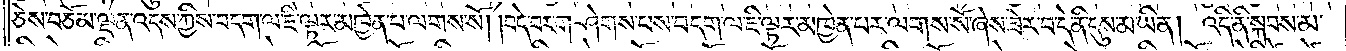ཅེས་བཅོམ་ལྡན་འདས་ཀྱིས་བདག་ལ་ཇི་ལྟར་མཁྱེན་པ་ལགས་སོ། །བདེ་བར་གཤེགས་པས་བདག་ལ་ཇི་ལྟར་མཁྱེན་པར་ལགས་སོ་ཞེས་ཟེར་བ་དེ་ནི་དུས་མ་ཡིན། འདི་ནི་སྐབས་མ་
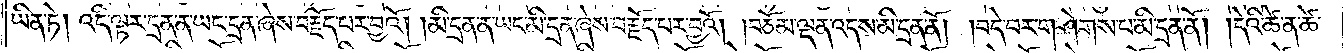ཡིན་ཏེ། འདི་ལྟར་དྲན་ན་ཡང་དྲན་ཞེས་བརྗོད་པར་བྱའོ། །མི་དྲན་ན་ཡང་མི་དྲན་ཞེས་བརྗོད་པར་བྱའོ། །བཅོམ་ལྡན་འདས་མི་དྲན་ནོ། །བདེ་བར་གཤེགས་པ་མི་དྲན་ནོ། །དེའི་ཚེ་ན་ཚེ་
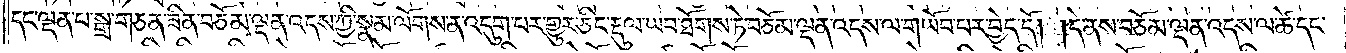དང་ལྡན་པ་སྒྲ་གཅན་ཟིན་བཅོམ་ལྡན་འདས་ཀྱི་སྣམ་ལོགས་ན་འདུག་པར་གྱུར་ཅིང་རྡུལ་ཡབ་ཐོགས་ཏེ་བཅོམ་ལྡན་འདས་ལ་གཡོབ་པར་བྱེད་དོ། །དེ་ནས་བཅོམ་ལྡན་འདས་ལ་ཚེ་དང་
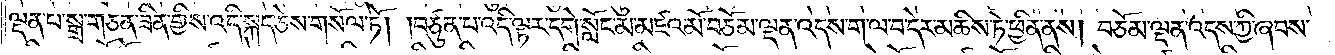ལྡན་པ་སྒྲ་གཅན་ཟིན་གྱིས་འདི་སྐད་ཅེས་གསོལ་ཏོ། །བཙུན་པ་འདི་ལྟར་དགེ་སློང་མ་མཛའ་མོ་བཅོམ་ལྡན་འདས་ག་ལ་བ་དེར་མཆིས་ཏེ་ཕྱིན་ནས། བཅོམ་ལྡན་འདས་ཀྱི་ཞབས་
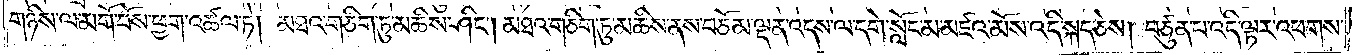གཉིས་ལ་མགོ་བོས་ཕྱག་འཚལ་ཏེ། མཐའ་གཅིག་ཏུ་མཆིས་ཤིང༌། མཐའ་གཅིག་ཏུ་མཆིས་ནས་བཅོམ་ལྡན་འདས་ལ་དགེ་སློང་མ་མཛའ་མོས་འདི་སྐད་ཅེས། བཙུན་པ་འདི་ལྟར་འཕགས་
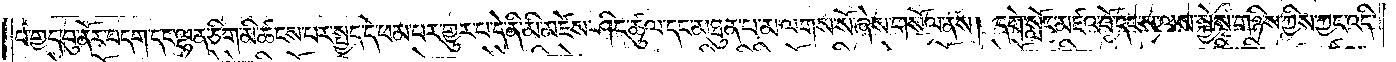པ་གྱད་བུ་ནོར་བདག་དང་ལྷན་ཅིག་མི་ཚངས་པར་སྤྱད་དེ་ཕམ་པར་གྱུར་པ་དེ་ནི་མི་མཛེས་ཤིང་ཚུལ་དང་མཐུན་པ་མ་ལགས་སོ་ཞེས་གསོལ་ནས། དགེ་སློང་མཛའ་བོ་དང་ས་ལས་སྐྱེས་གཉིས་ཀྱིས་ཀྱང་འདི་
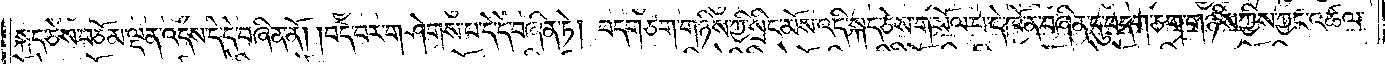སྐད་ཅེས་བཅོམ་ལྡན་འདས་དེ་དེ་བཞིན་ནོ། །བདེ་བར་གཤེགས་པ་དེ་དེ་བཞིན་ཏེ། བདག་ཅག་གཉིས་ཀྱི་སྲིང་མོས་འདི་སྐད་ཅེས་གསོལ་པ་དེ་ཁོ་ན་བཞིན་དུ་བདག་ཅག་གཉིས་ཀྱིས་ཀྱང་འཚལ་
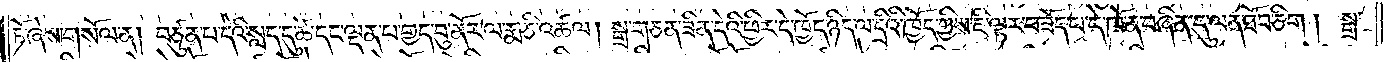ཏོ་ཞེས་གསོལ་ན། བཙུན་པ་དེའི་སླད་དུ་ཚེ་དང་ལྡན་པ་གྱད་བུ་ནོར་ལ་རྨ་ཅི་འཚལ། སྒྲ་གཅན་ཟིན་དེའི་ཕྱིར་དེ་ཁྱོད་ཉིད་ལ་དྲིའི་ཁྱོད་ཀྱིས་ཇི་ལྟར་བཟོད་པ་དེ་ཁོ་ན་བཞིན་དུ་ལན་ཐོབ་ཅིག། སྒྲ་
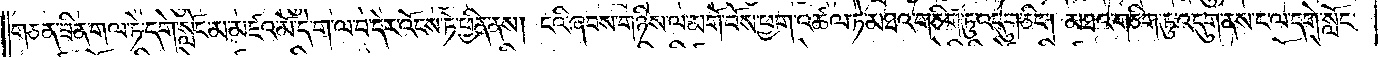གཅན་ཟིན་གལ་ཏེ་དགེ་སློང་མ་མཛའ་མོ་དེ་ག་ལ་བ་དེར་འོངས་ཏེ་ཕྱིན་ནས། ངའི་ཞབས་གཉིས་ལ་མགོ་བོས་ཕྱག་འཚལ་ཏེ་མཐའ་གཅིག་ཏུ་འདུག་ཅིང༌། མཐའ་གཅིག་ཏུ་འདུག་ནས་ང་ལ་དགེ་སློང་
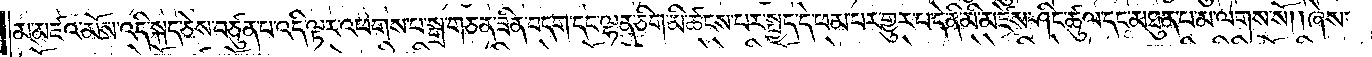མ་མཛའ་མོས་འདི་སྐད་ཅེས་བཙུན་པ་འདི་ལྟར་འཕགས་པ་སྒྲ་གཅན་ཟིན་བདག་དང་ལྷན་ཅིག་མི་ཚངས་པར་སྤྱད་དེ་ཕམ་པར་གྱུར་པ་དེ་ནི་མི་མཛེས་ཤིང་ཚུལ་དང་མཐུན་པ་མ་ལགས་སོ། །ཞེས་
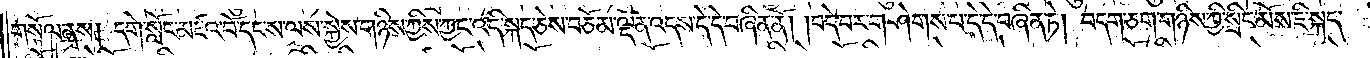གསོལ་ནས། དགེ་སློང་མཛའ་བོ་དང་ས་ལས་སྐྱེས་གཉིས་ཀྱིས་ཀྱང་འདི་སྐད་ཅེས་བཅོམ་ལྡན་འདས་དེ་དེ་བཞིན་ནོ། །བདེ་བར་གཤེགས་པ་དེ་དེ་བཞིན་ཏེ། བདག་ཅག་གཉིས་ཀྱི་སྲིང་མོས་ཇི་སྐད་
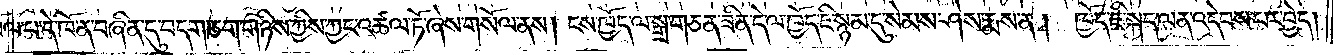གསོལ་པ་དེ་ཁོ་ན་བཞིན་དུ་བདག་ཅག་གཉིས་ཀྱིས་ཀྱང་འཚལ་ཏོ་ཞེས་གསོལ་ནས། ངས་ཁྱོད་ལ་སྒྲ་གཅན་ཟིན་དེ་ལ་ཁྱོད་ཇི་སྙམ་དུ་སེམས་ཤེས་རྨས་ན། ཁྱོད་ཇི་སྐད་ལན་འདེབས་པར་བྱེད།
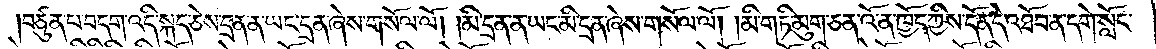བཙུན་པ་བདག་འདི་སྐད་ཅེས་དྲན་ན་ཡང་དྲན་ཞེས་གསོལ་ལོ། །མི་དྲན་ན་ཡང་མི་དྲན་ཞེས་གསོལ་ལོ། །མི་གཏི་མུག་ཅན་འོ་ན་ཁྱོད་ཀྱིས་དོན་དེ་འཐོབ་ན་དགེ་སློང་
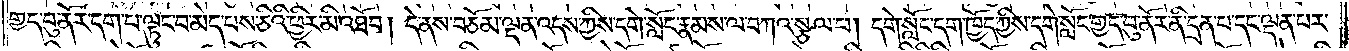གྱད་བུ་ནོར་དག་པ་ལྟུང་བ་མེད་པས་ཅིའི་ཕྱིར་མི་འཐོབ། དེ་ནས་བཅོམ་ལྡན་འདས་ཀྱིས་དགེ་སློང་རྣམས་ལ་བཀའ་སྩལ་པ། དགེ་སློང་དག་ཁྱོད་ཀྱིས་དགེ་སློང་གྱད་བུ་ནོར་ནི་དྲན་པ་དང་ལྡན་པར་
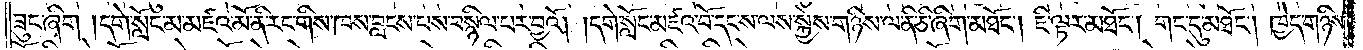ཟུང་ཞིག །དགེ་སློང་མ་མཛའ་མོ་ནི་རང་གིས་ཁས་བླངས་པས་བསྙིལ་པར་བྱའོ། །དགེ་སློང་མཛའ་བོ་དང་ས་ལས་སྐྱེས་གཉིས་ལ་ནི་ཅི་ཞིག་མཐོང༌། ཇི་ལྟར་མཐོང༌། གང་དུ་མཐོང༌། ཁྱེད་གཉིས་
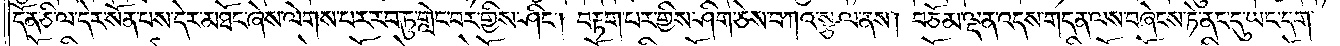དོན་ཅི་ལ་དེར་སོན་པས་དེར་མཐོང་ཞེས་ལེགས་པར་རབ་ཏུ་གླེང་བར་གྱིས་ཤིང༌། བརྟག་པར་གྱིས་ཤིག་ཅེས་བཀའ་སྩལ་ནས། བཅོམ་ལྡན་འདས་གདན་ལས་བཞེངས་ཏེ་ནང་དུ་ཡང་དག་
